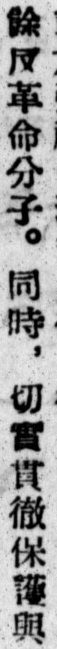餘反革命分子。同時，切實貫徹保護與
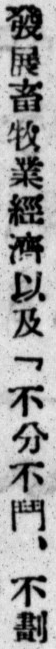發展畜牧業經濟以及「不分不鬥、不劃
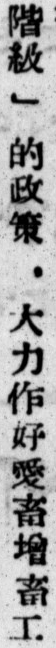階級」 的政策 ，大力作好愛畜增畜工
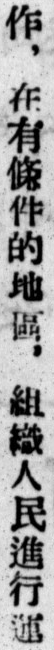作，在有條件的地區，組織人民進行運
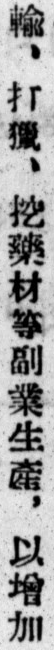輸、打獵、挖藥材等副業生產，以增加
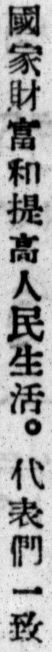國家財富和提高人民生活。代表們一致
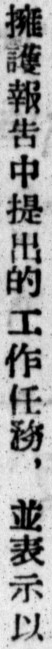擁護報告中提出的工作任務，並表示以
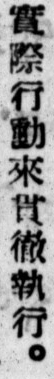實際行動來貫徹執行。
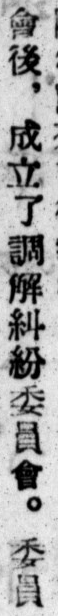會後，成立了調解糾紛委員會。委員
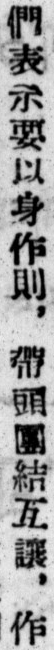們表示要以身作則，帶頭團結互讓，作
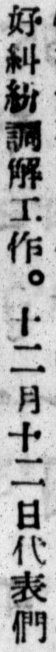好糾紛調解工作。十二月十二日代表們
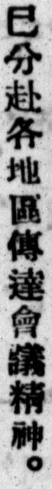已分赴各地區傳達會議精神。
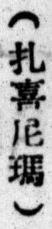（扎喜尼瑪）
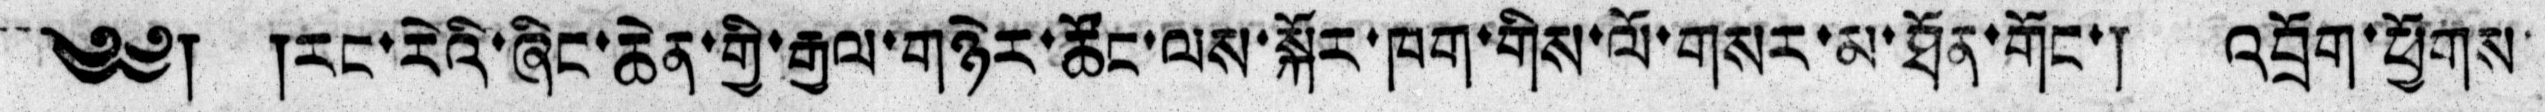༄༅། །རང་རེའི་ཞིང་ཆེན་གྱི་རྒྱལ་གཉེར་ཚོང་ལས་སྐོར་ཁག་གིས་ལོ་གསར་མ་ཐོན་གོང་། འབྲོག་ཕྱོགས་
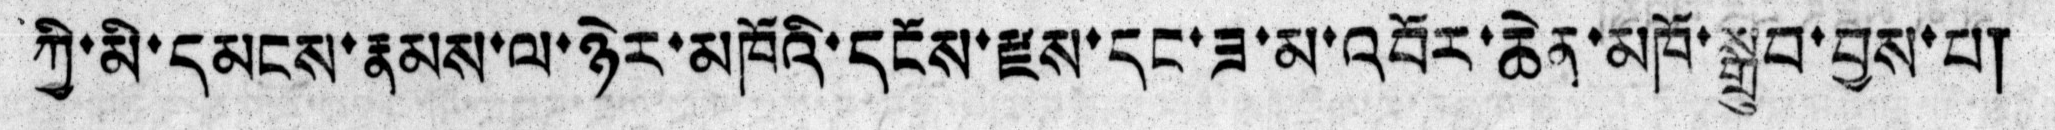ཀྱི་མི་དམངས་རྣམས་ལ་ཉེར་མཁོའི་དངོས་རྫས་དང་ཟ་མ་འབོར་ཆེན་མཁོ་སྒྲུབ་བྱས་པ།
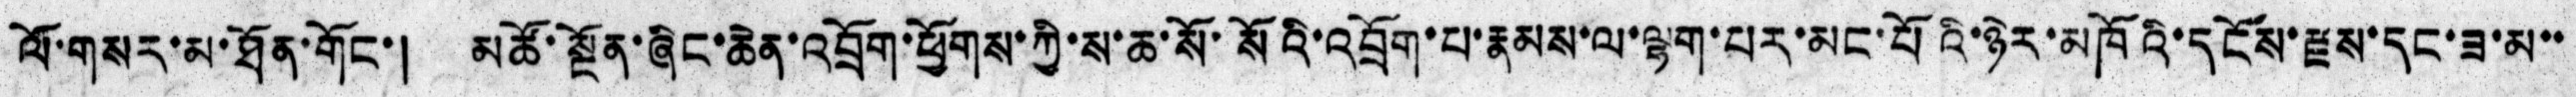ལོ་གསར་མ་ཐོན་གོང་། མཚོ་སྔོན་ཞིང་ཆེན་འབྲོག་ཕྱོགས་ཀྱི་ས་ཆ་སོ་སོའི་འབྲོག་པ་རྣམས་ལ་ལྷག་པར་མང་པོའི་ཉེར་མཁོའི་དངོས་རྫས་དང་ཟ་མ་་
